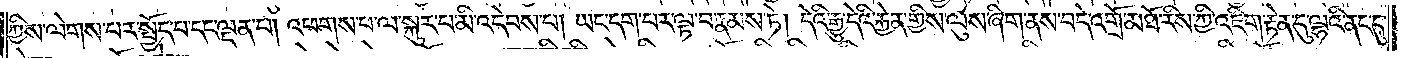ཀྱིས་ལེགས་པར་སྤྱོད་པ་དང་ལྡན་པ། འཕགས་པ་ལ་སྐུར་པ་མི་འདེབས་པ། ཡང་དག་པར་ལྟ་བ་རྣམས་ཏེ། དེའི་རྒྱུ་དེའི་རྐྱེན་གྱིས་ལུས་ཞིག་ནས་བདེ་འགྲོ་མཐོ་རིས་ཀྱི་འཇིག་རྟེན་དུ་ལྷའི་ནང་དུ་
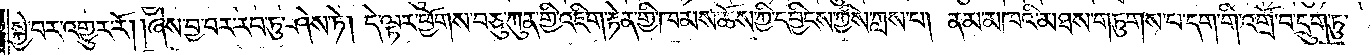སྐྱེ་བར་འགྱུར་རོ། །ཞེས་བྱ་བར་རབ་ཏུ་ཤེས་ཏེ། དེ་ལྟར་ཕྱོགས་བཅུ་ཀུན་གྱི་འཇིག་རྟེན་གྱི་ཁམས་ཆོས་ཀྱི་དབྱིངས་ཀྱིས་ཀླས་པ། ནམ་མཁའི་མཐས་གཏུགས་པ་དག་གི་འགྲོ་བ་དྲུག་ཏུ་
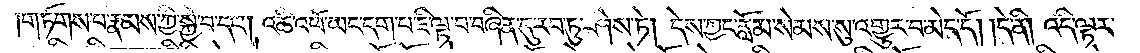གཏོགས་པ་རྣམས་ཀྱི་སྐྱེ་བ་དང༌། འཆི་འཕོ་ཡང་དག་པ་ཇི་ལྟ་བ་བཞིན་དུ་རབ་ཏུ་ཤེས་ཏེ། དེས་ཀྱང་རློམ་སེམས་སུ་འགྱུར་བ་མེད་དོ། །དེ་ནི། འདི་ལྟར་
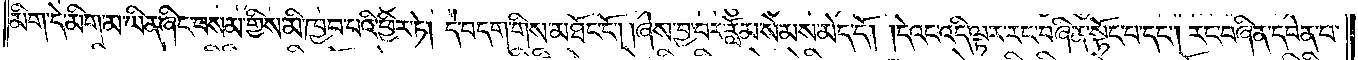མིག་དེ་མིག་མ་ཡིན་ཞིང་བསམ་གྱིས་མི་ཁྱབ་པའི་ཕྱིར་ཏེ། དེ་བདག་གིས་མཐོང་ངོ༌། །ཞེས་བྱ་བར་རློམ་སེམས་མེད་དོ། །དེའང་འདི་ལྟར་རང་བཞིན་སྟོང་པ་དང༌། རང་བཞིན་དབེན་པ་
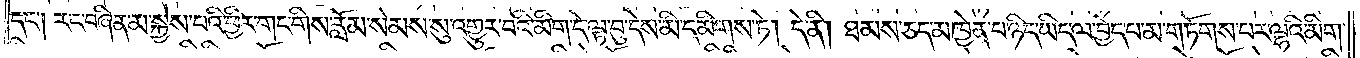དང༌། རང་བཞིན་མ་སྐྱེས་པའི་ཕྱིར་གང་གིས་རློམ་སེམས་སུ་འགྱུར་བའི་མིག་དེ་ལྟ་བུ་དེས་མི་དམིགས་ཏེ། དེ་ནི། ཐམས་ཅད་མཁྱེན་པ་ཉིད་ཡིད་ལ་བྱེད་པ་མ་གཏོགས་པར་ལྷའི་མིག་
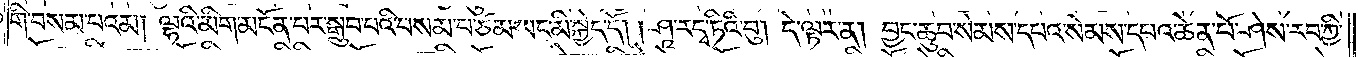གི་བསམ་པའམ། ལྷའི་མིག་མངོན་པར་སྒྲུབ་པའི་བསམ་པ་ཙམ་ཡང་མི་སྐྱེད་དོ། །ཤཱ་ར་དྭ་ཏིའི་བུ། དེ་ལྟར་ན། བྱང་ཆུབ་སེམས་དཔའ་སེམས་དཔའ་ཆེན་པོ་ཤེས་རབ་ཀྱི་
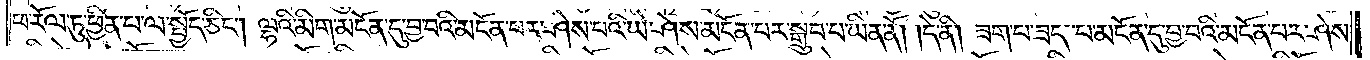ཕ་རོལ་ཏུ་ཕྱིན་པ་ལ་སྤྱོད་ཅིང༌། ལྷའི་མིག་མངོན་དུ་བྱ་བའི་མངོན་པར་ཤེས་པའི་ཡེ་ཤེས་མངོན་པར་སྒྲུབ་པ་ཡིན་ནོ། །དེ་ནི། ཟག་པ་ཟད་པ་མངོན་དུ་བྱ་བའི་མངོན་པར་ཤེས་
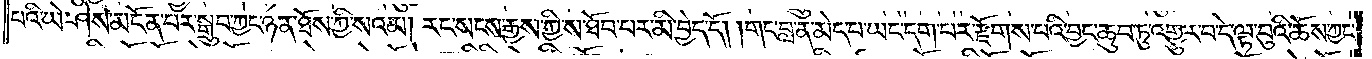པའི་ཡེ་ཤེས་མངོན་པར་སྒྲུབ་ཀྱང་ཉན་ཐོས་ཀྱི་སའམ། རང་སངས་རྒྱས་ཀྱིས་ཐོབ་པར་མི་བྱེད་དོ། །གང་བླ་ན་མེད་པ་ཡང་དག་པར་རྫོགས་པའི་བྱང་ཆུབ་ཏུ་འགྱུར་བ་དེ་ལྟ་བུའི་ཆོས་ཀྱང་
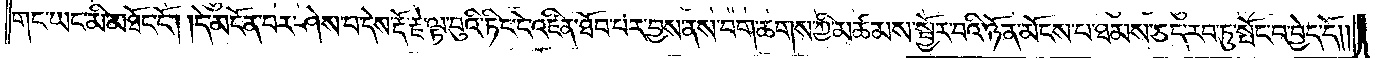གང་ཡང་མི་མཐོང་ངོ༌། །དེ་མངོན་པར་ཤེས་པ་དེས་རྡོ་རྗེ་ལྟ་བུའི་ཏིང་ངེ་འཛིན་ཐོབ་པར་བྱས་ནས་བག་ཆགས་ཀྱི་མཚམས་སྦྱོར་བའི་ཉོན་མོངས་པ་ཐམས་ཅད་རབ་ཏུ་སྤོང་བ་བྱེད་དོ༎
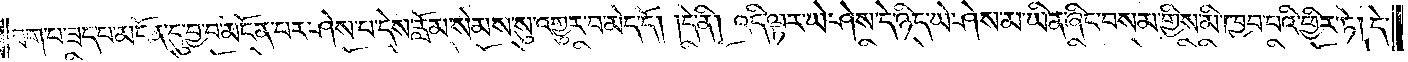ཟག་པ་ཟད་པ་མངོན་དུ་བྱ་བ་མངོན་པར་ཤེས་པ་དེས་རློམ་སེམས་སུ་འགྱུར་བ་མེད་དོ། །དེ་ནི། འདི་ལྟར་ཡེ་ཤེས་དེ་ཉིད་ཡེ་ཤེས་མ་ཡིན་ཞིང་བསམ་གྱིས་མི་ཁྱབ་པའི་ཕྱིར་ཏེ། དེ་
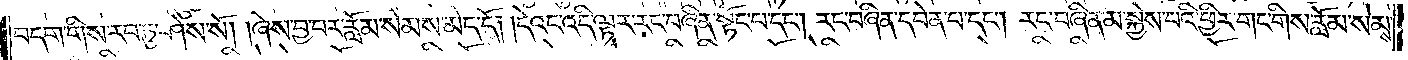བདག་གིས་རབ་ཏུ་ཤེས་སོ། །ཞེས་བྱ་བར་རློམ་སེམས་མེད་དོ། །དེའང་འདི་ལྟར་རང་བཞིན་སྟོང་པ་དང༌། རང་བཞིན་དབེན་པ་དང༌། རང་བཞིན་མ་སྐྱེས་པའི་ཕྱིར་གང་གིས་རློམ་སེམས་
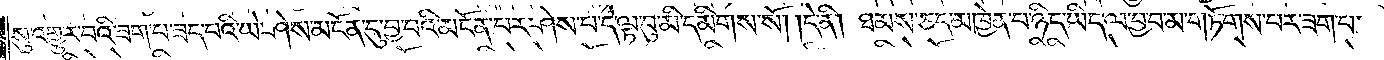སུ་འགྱུར་བའི་ཟག་པ་ཟད་པའི་ཡེ་ཤེས་མངོན་དུ་བྱ་བའི་མངོན་པར་ཤེས་པ་དེ་ལྟ་བུ་མི་དམིགས་སོ། །དེ་ནི། ཐམས་ཅད་མཁྱེན་པ་ཉིད་ཡིད་ལ་བྱ་བ་མ་གཏོགས་པར་ཟག་པ་
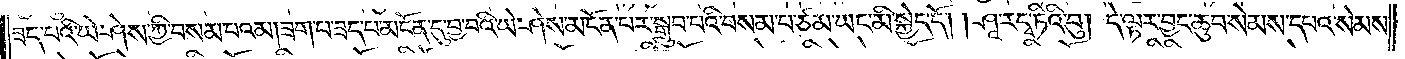ཟད་པའི་ཡེ་ཤེས་ཀྱི་བསམ་པའམ། ཟག་པ་ཟད་པ་མངོན་དུ་བྱ་བའི་ཡེ་ཤེས་མངོན་པར་སྒྲུབ་པའི་བསམ་པ་ཙམ་ཡང་མི་སྐྱེད་དོ། །ཤཱ་ར་དྭ་ཏིའི་བུ། དེ་ལྟར་བྱང་ཆུབ་སེམས་དཔའ་སེམས་
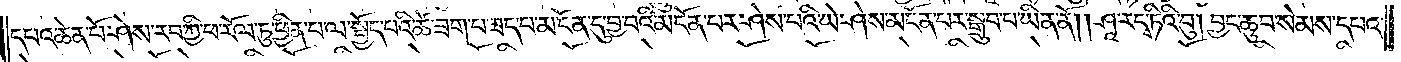དཔའ་ཆེན་པོ་ཤེས་རབ་ཀྱི་ཕ་རོལ་ཏུ་ཕྱིན་པ་ལ་སྤྱོད་པའི་ཚེ་ཟག་པ་ཟད་པ་མངོན་དུ་བྱ་བའི་མངོན་པར་ཤེས་པའི་ཡེ་ཤེས་མངོན་པར་སྒྲུབ་པ་ཡིན་ནོ། །ཤཱ་ར་དྭ་ཏིའི་བུ། བྱང་ཆུབ་སེམས་དཔའ་
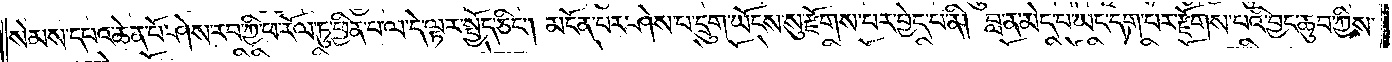སེམས་དཔའ་ཆེན་པོ་ཤེས་རབ་ཀྱི་ཕ་རོལ་ཏུ་ཕྱིན་པ་ལ་དེ་ལྟར་སྤྱོད་ཅིང༌། མངོན་པར་ཤེས་པ་དྲུག་ཡོངས་སུ་རྫོགས་པར་བྱེད་པ་ནི། བླ་ན་མེད་པ་ཡང་དག་པར་རྫོགས་པའི་བྱང་ཆུབ་ཀྱིས་
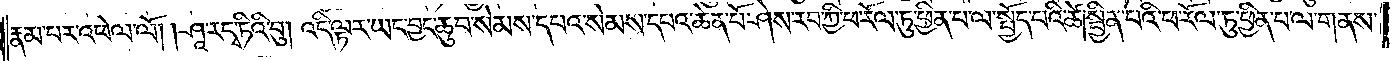རྣམ་པར་འཕེལ་ལོ། །ཤཱ་ར་དྭ་ཏིའི་བུ། འདི་ལྟར་ཡང་བྱང་ཆུབ་སེམས་དཔའ་སེམས་དཔའ་ཆེན་པོ་ཤེས་རབ་ཀྱི་ཕ་རོལ་ཏུ་ཕྱིན་པ་ལ་སྤྱོད་པའི་ཚེ། སྦྱིན་པའི་ཕ་རོལ་ཏུ་ཕྱིན་པ་ལ་གནས་
